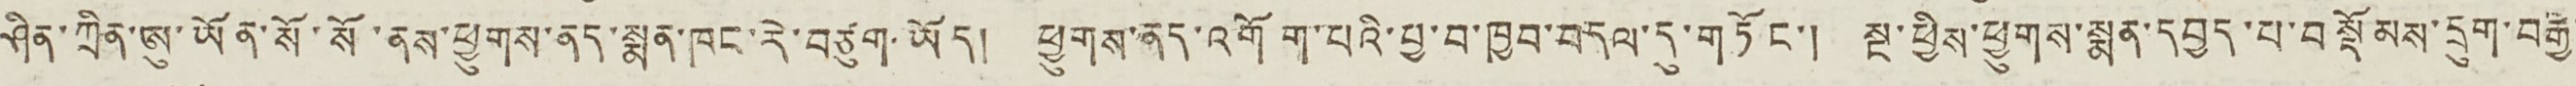ཤིན་ཀྲིན་ཨུ་ཡོན་སོ་སོ་ནས་ཕྱུགས་ནད་སྨན་ཁང་རེ་བཙུག་ཡོད། ཕྱུགས་ནད་འགོག་པའི་བྱ་བ་ཁྱབ་བདལ་དུ་བཏོང་། སྔ་ཕྱིས་ཕྱུགས་སྨན་དབྱད་པ་བསྡོམས་དྲུག་བརྒྱ་
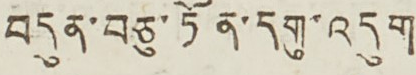བདུན་བཅུ་ཏོན་དགུ་འདུག
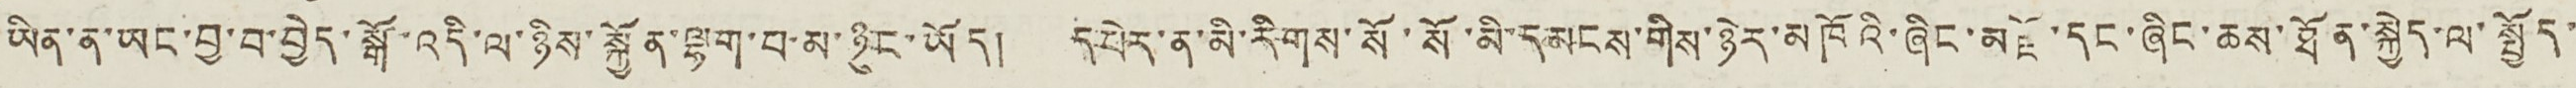ཡིན་ན་ཡང་བྱ་བ་བྱེད་སྒོ་འདི་ལ་ཉིས་སྐྱོན་ལྷག་པ་མ་ཉུང་ཡོད། དཔེར་ན་མི་རིགས་སོ་སོ་མི་དམངས་གིས་ཉེར་མཁོའི་ཞིང་མཛོ་དང་ཞིང་ཆས་ཐོན་སྐྱེད་ལ་སྤྱོད་
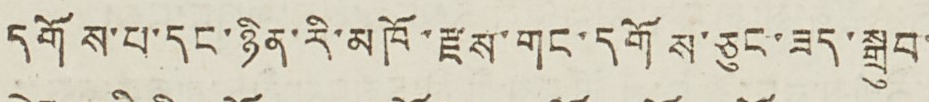དགོས་པ་དང་ཉིན་རི་མཁོ་རྫས་གང་དགོས་ཅུང་ཟད་སྒྲུབ་
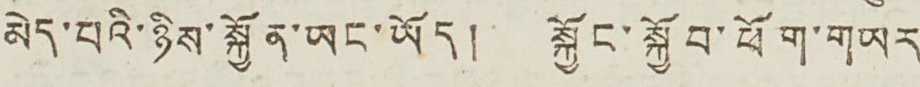མེད་པའི་ཉིས་སྐྱོན་ཡང་ཡོད། སྐྱོང་སྐྱོབ་ཕོ་གཡར
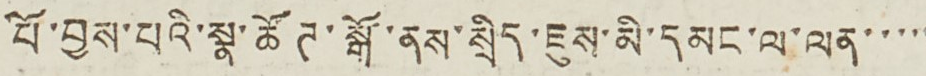པོ་བྱས་པའི་སྣ་ཚོཊ་སྒོ་ནས་སྲིད་ཇུས་མི་དམང་ལ་ལན་་་་་
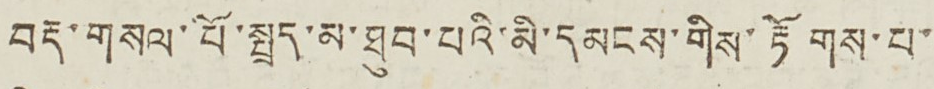བརྡ་གསལ་པོ་སྤྲད་མ་ཐུབ་པའི་མི་དམངས་གིས་རྟོགས་པ་
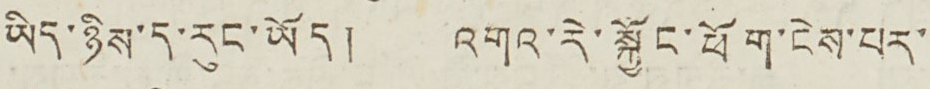ཡིད་ཉིས་ད་རུང་ཡོད། འགའ་རེ་སྐྱོང་ཕོག་ངེས་པར་
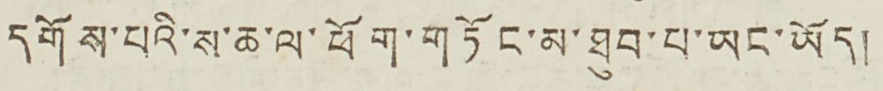དགོས་པའི་ས་ཆ་ལ་ཕོག་གཏོང་མ་ཐུབ་པ་ཡང་ཡོད།
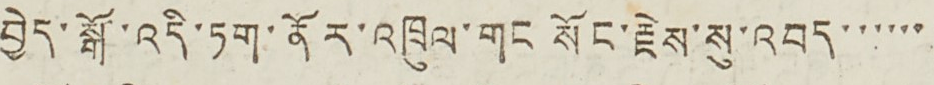བྱེད་སྒོ་འདི་ཏག་ནོར་འཁྲུལ་གང སོང་རྗེས་སུ་འབད་་་་་་
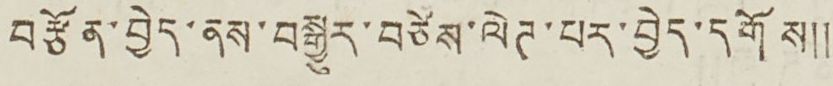བརྩོན་བྱེད་ནས་བསྒྱུར་བཙེས་ལེཊ་པར་བྱེད་དགོས༎
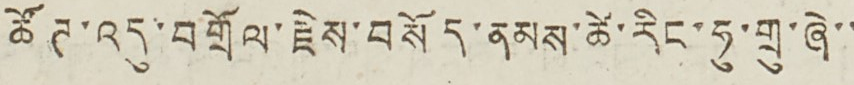ཚོཊ་འདུ་བགྲོལ་རྗེས་བསོད་ནམས་ཚེ་རིང་ཧུ་གྲུ་ཞེ་་
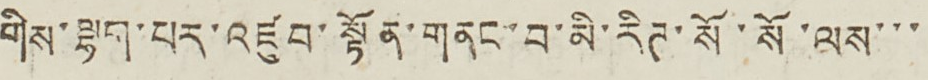གིས་ལྷག་པར་འཛུབ་སྟོན་གནང་བ་མི་རིཊ་སོ་སོ་ལས་་་
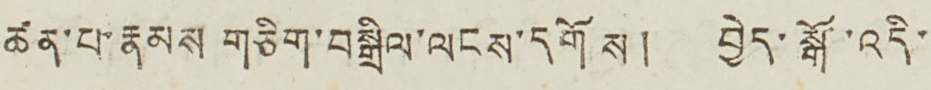ཚན་པ་རྣམས གཅིག་བསྒྲིལ་ལངས་དགོས། བྱེད་སྒོ་འདི་
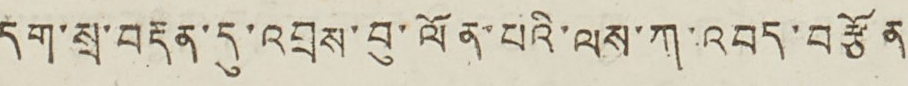དག་སྲ་བརྡན་དུ་འབྲས་བུ་ལོན་པའི་ལས་ཀ་འབད་བརྩོན
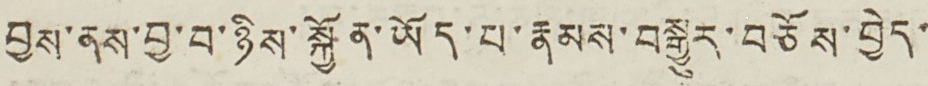བྱས་ནས་བྱ་བ་ཉིས་སྐྱོན་ཡོད་པ་རྣམས་བསྒྱུར་བཅོས་བྱེད་
